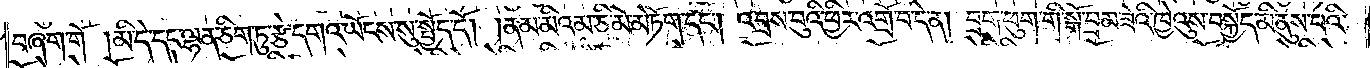བཞག་གོ །མི་དེ་དང་ལྷན་ཅིག་ཏུ་རྩེ་དགའ་ཡོངས་སུ་སྤྱོད་དོ། །ནམ་མིའམ་ཅི་མོ་མེ་ཏོག་དང༌། འབྲས་བུའི་ཕྱིར་འགྲོ་བ་དེ་ན། བྲག་ཕུག་གི་སྒོ་བྲམ་ཟེའི་ཁྱེའུས་བསྐྱོད་མི་ནུས་པའི་
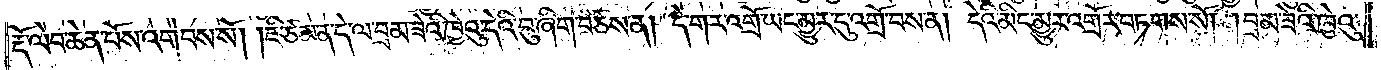རྡོ་ལེབ་ཆེན་པོས་འགེབས་སོ། །ཇི་ཙམ་ན་དེ་ལ་བྲམ་ཟེའི་ཁྱེའུ་དེའི་བུ་ཞིག་བཙས་ན། དེ་གར་འགྲོ་ཡང་མྱུར་དུ་འགྲོ་བས་ན། དེའི་མིང་མྱུར་འགྲོར་བཏགས་སོ། །བྲམ་ཟེའི་ཁྱེའུ་
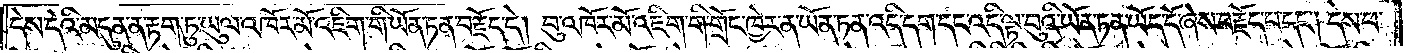དེས་དེའི་མདུན་ན་རྟག་ཏུ་ཡུལ་འཁོར་མོ་འཇིག་གི་ཡོན་ཏན་བརྗོད་དེ། བུ་འཁོར་མོ་འཇིག་གི་གྲོང་ཁྱེར་ན་ཡོན་ཏན་འདི་དག་དང་འདི་ལྟ་བུའི་ཡོན་ཏན་ཡོད་དོ་ཞེས་བརྗོད་པ་དང༌། དེས་ཕ་
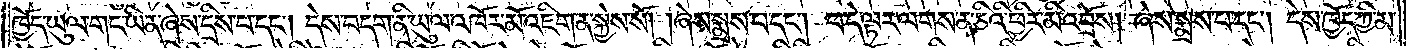ཁྱོད་ཡུལ་གང་ཡིན་ཞེས་དྲིས་པ་དང༌། དེས་བདག་ནི་ཡུལ་འཁོར་མོ་འཇིག་ན་སྐྱེས་སོ། །ཞེས་སྨྲས་པ་དང༌། ཕ་དེ་ལྟར་ལགས་ན་ཅིའི་ཕྱིར་མི་འབྲོས། ཞེས་སྨྲས་པ་དང༌། དེས་ཁྱོད་ཀྱི་མ་
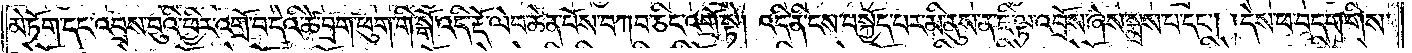མེ་ཏོག་དང་འབྲས་བུའི་ཕྱིར་འགྲོ་བ་དེའི་ཚེ་བྲག་ཕུག་གི་སྒོ་འདི་རྡོ་ལེབ་ཆེན་པོས་བཀབ་ཅིང་འགྲོ་སྟེ། འདི་ནི་ངས་བསྐྱོད་པར་མི་ནུས་ན་ཇི་ལྟ་འབྲོས་ཞེས་སྨྲས་པ་དང༌། །དེས་ཕ་བདག་གིས་
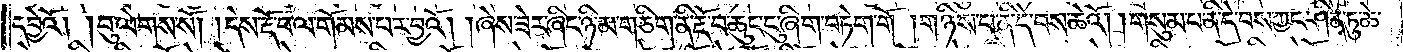དབྱེའོ། །བུ་ལེགས་སོ། །དེས་རྡོ་བ་ལ་གོམས་པར་བྱའོ། །ཞེས་ཟེར་ཞིང་ཉི་མ་གཅིག་ནི་རྡོ་བ་ཆུང་ངུ་ཞིག་བཏེག་གོ །གཉིས་པ་ནི་དེ་བས་ཆེའོ། །གསུམ་པ་ནི་དེ་བས་ཀྱང་ཤིན་ཏུ་ཆེ་
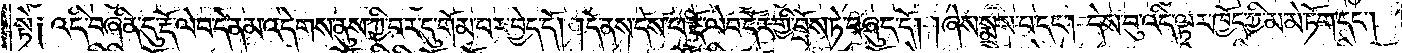སྟེ༑ འདི་བཞིན་དུ་རྡོ་ལེབ་དེ་ནམ་འདེགས་ནུས་ཀྱི་བར་དུ་གོམ་པར་བྱེད་དོ། །དེ་ནས་དེས་ཕ་རྡོ་ལེབ་དོར་གྱི་བྲོས་ཏེ་བཞུད་དོ། །ཞེས་སྨྲས་པ་དང༌། དེས་བུ་འདི་ལྟར་ཁྱོད་ཀྱི་མ་མེ་ཏོག་དང༌།
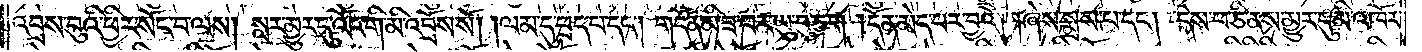འབྲས་བུའི་ཕྱིར་སོང་བ་ལས། སླར་མྱུར་དུ་འོང་གི་མི་འབྲོས་སོ། །ལམ་དུ་ཕྲད་པ་དང༌། གདོན་མི་ཟ་བར་ཡུ་བུ་ཅག །དོན་མེད་པར་བྱའོ། །ཞེས་སྨྲས་པ་དང༌། དེས་ཕ་ཅི་ནས་མྱུར་དུ་མི་འཁོར་
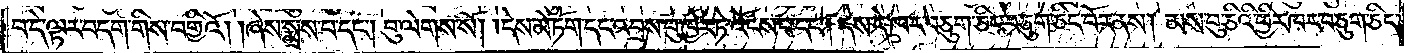བ་དེ་ལྟར་བདག་གིས་བགྱིའོ། །ཞེས་སྨྲས་པ་དང༌། བུ་ལེགས་སོ། །དེས་མེ་ཏོག་དང་འབྲས་བུ་ཁྱེར་ཏེ་འོངས་པ་དང༌། དེས་དེ་ཁར་བཅུག་ཅིང་བཅུག་ཅིང་བོར་ནས། མས་བུ་ཅིའི་ཕྱིར་ཁར་བཅུག་ཅིང་
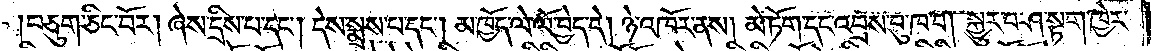བཅུག་ཅིང་བོར། ཞེས་དྲིས་པ་དང༌། དེས་སྨྲས་པ་དང༌། མ་ཁྱོད་ལེ་ལོ་བྱེད་དེ། ཉེ་འཁོར་ནས། མེ་ཏོག་དང་འབྲས་བུ་ཁ་བ། སྐྱུར་བ་ཤ་སྟག་ཁྱེར་
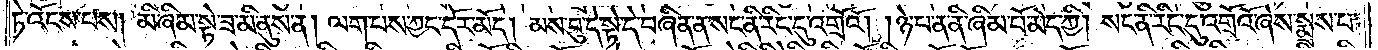ཏེ་འོངས་པས། མི་ཞིམ་སྟེ་ཟ་མི་ནུས་ན། ལག་པས་ཀྱང་དོར་མེད། མས་བུ་དེ་སྟེ་དེ་བཞིན་ན་སང་ནི་རིང་དུ་འགྲོའོ། །ཉེ་པ་ན་ནི་ཞིམ་པོ་མེད་ཀྱི། སང་ནི་རིང་དུ་འགྲོའོ་ཞེས་སྨྲས་པ་
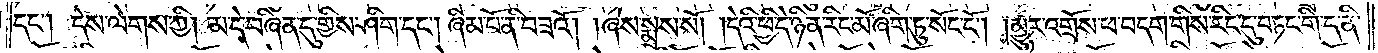དང༌། དེས་ལེགས་ཀྱི། མ་དེ་བཞིན་དུ་གྱིས་ཤིག་དང༌། ཞིམ་པོ་ནི་བཟའོ། །ཞེས་སྨྲས་སོ། །དེའི་ཕྱིར་དེ་ཉིན་རིང་མོ་ཞིག་ཏུ་སོང་ངོ༌། །མྱུར་འགྲོས་ཕ་བདག་གིས་རིང་དུ་བཏང་གི་ད་ནི་
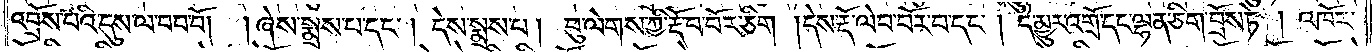འབྲོས་པའི་དུས་ལ་བབ་བོ། །ཞེས་སྨྲས་པ་དང༌། དེས་སྨྲས་པ། བུ་ལེགས་ཀྱི་རྡོ་བ་བོར་ཅིག །དེས་རྡོ་ལེབ་བོར་བ་དང༌། དེ་མྱུར་འགྲོ་དང་ལྷན་ཅིག་བྲོས་ཏེ། འཁོར་
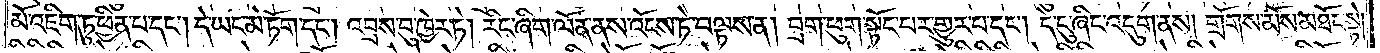མོ་འཇིག་ཏུ་ཕྱིན་པ་དང༌། དེ་ཡང་མེ་ཏོག་དང༌། འབྲས་བུ་ཁྱེར་ཏེ། རིང་ཞིག་ལོན་ནས་འོངས་ཏེ་བལྟས་ན། བྲག་ཕུག་སྟོང་པར་གྱུར་པ་དང༌། དེ་ངུ་ཞིང་འདུག་ནས། གྲོགས་མོས་མཐོང་སྟེ།
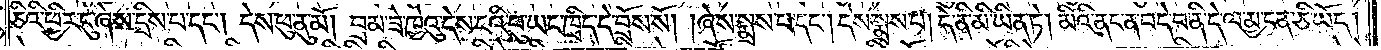ཅིའི་ཕྱིར་ངུ་ཞེས་དྲིས་པ་དང༌། དེས་ཕུ་ནུ་མོ། བྲམ་ཟེ་ཁྱེའུ་དེས་ངའི་བུ་ཡང་ཁྲིད་དེ་བྲོས་སོ། །ཞེས་སྨྲས་པ་དང༌། དེས་སྨྲས་པ། དེ་ནི་མི་ཡིན་ཏེ། མིའི་ནང་ན་བདེ་བ་ནི་དེ་ལ་མྱ་ངན་ཅི་ཡོད།
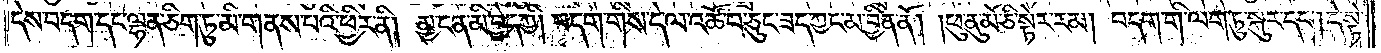དེས་བདག་དང་ལྷན་ཅིག་ཏུ་མི་གནས་པའི་ཕྱིར་ནི། མྱ་ངན་མི་བྱེད་ཀྱི། བདག་གིས་དེ་ལ་འཚོ་བ་ཅུང་ཟད་ཀྱང་མ་བྱིན་ནོ། །ཕུ་ནུ་མོ་ཅི་སྟེར་རམ། བདག་གི་ལག་ཏུ་སྐུར་དང༌། དེ་སྟེ་
